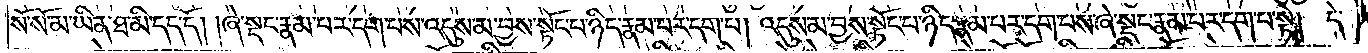སོ་སོ་མ་ཡིན་ཐ་མི་དད་དོ། །ཞེ་སྡང་རྣམ་པར་དག་པས་འདུས་མ་བྱས་སྟོང་པ་ཉིད་རྣམ་པར་དག་པ། འདུས་མ་བྱས་སྟོང་པ་ཉིད་རྣམ་པར་དག་པས་ཞེ་སྡང་རྣམ་པར་དག་པ་སྟེ། དེ་
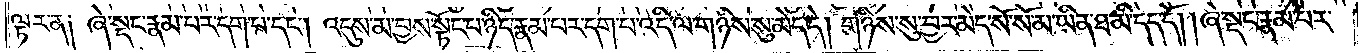ལྟར་ན། ཞེ་སྡང་རྣམ་པར་དག་པ་དང༌། འདུས་མ་བྱས་སྟོང་པ་ཉིད་རྣམ་པར་དག་པ་འདི་ལ་གཉིས་སུ་མེད་དེ། གཉིས་སུ་བྱར་མེད་སོ་སོ་མ་ཡིན་ཐ་མི་དད་དོ། །ཞེ་སྡང་རྣམ་པར་
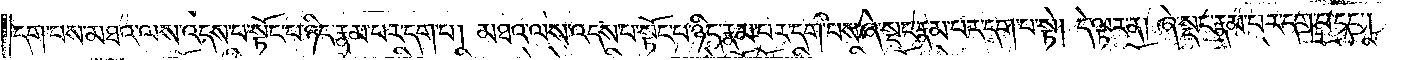དག་པས་མཐའ་ལས་འདས་པ་སྟོང་པ་ཉིད་རྣམ་པར་དག་པ། མཐའ་ལས་འདས་པ་སྟོང་པ་ཉིད་རྣམ་པར་དག་པས་ཞེ་སྡང་རྣམ་པར་དག་པ་སྟེ། དེ་ལྟར་ན། ཞེ་སྡང་རྣམ་པར་དག་པ་དང༌།
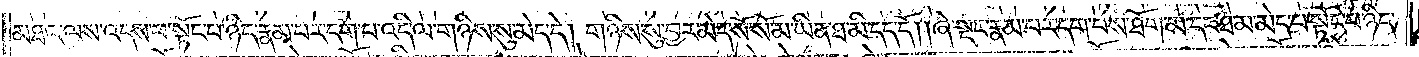མཐའ་ལས་འདས་པ་སྟོང་པ་ཉིད་རྣམ་པར་དག་པ་འདི་ལ་གཉིས་སུ་མེད་དེ། གཉིས་སུ་བྱར་མེད་སོ་སོ་མ་ཡིན་ཐ་མི་དད་དོ། །ཞེ་སྡང་རྣམ་པར་དག་པས་ཐོག་མ་དང་ཐ་མ་མེད་པ་སྟོང་པ་ཉིད་
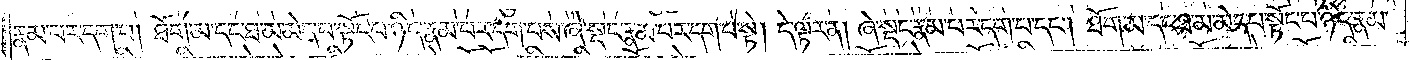རྣམ་པར་དག་པ། ཐོག་མ་དང་ཐ་མ་མེད་པ་སྟོང་པ་ཉིད་རྣམ་པར་དག་པས་ཞེ་སྡང་རྣམ་པར་དག་པ་སྟེ། དེ་ལྟར་ན། ཞེ་སྡང་རྣམ་པར་དག་པ་དང༌། ཐོག་མ་དང་ཐ་མ་མེད་པ་སྟོང་པ་ཉིད་རྣམ་
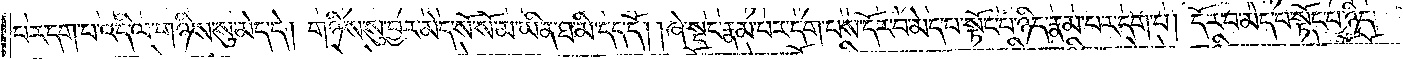པར་དག་པ་འདི་ལ་གཉིས་སུ་མེད་དེ། གཉིས་སུ་བྱར་མེད་སོ་སོ་མ་ཡིན་ཐ་མི་དད་དོ། །ཞེ་སྡང་རྣམ་པར་དག་པས་དོར་བ་མེད་པ་སྟོང་པ་ཉིད་རྣམ་པར་དག་པ། དོར་བ་མེད་པ་སྟོང་པ་ཉིད་
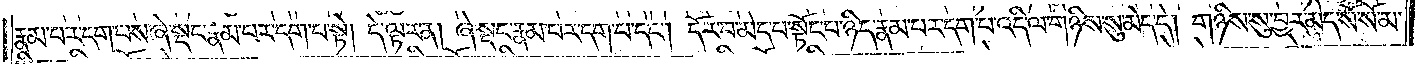རྣམ་པར་དག་པས་ཞེ་སྡང་རྣམ་པར་དག་པ་སྟེ། དེ་ལྟར་ན། ཞེ་སྡང་རྣམ་པར་དག་པ་དང༌། དོར་བ་མེད་པ་སྟོང་པ་ཉིད་རྣམ་པར་དག་པ་འདི་ལ་གཉིས་སུ་མེད་དེ་གཉིས་སུ་མེད་དེ། གཉིས་སུ་བྱར་མེད་སོ་སོ་མ་
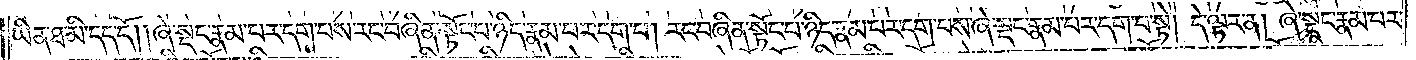ཡིན་ཐ་མི་དད་དོ། །ཞེ་སྡང་རྣམ་པར་དག་པས་རང་བཞིན་སྟོང་པ་ཉིད་རྣམ་པར་དག་པ། རང་བཞིན་སྟོང་པ་ཉིད་རྣམ་པར་དག་པས་ཞེ་སྡང་རྣམ་པར་དག་པ་སྟེ། དེ་ལྟར་ན། ཞེ་སྡང་རྣམ་པར་
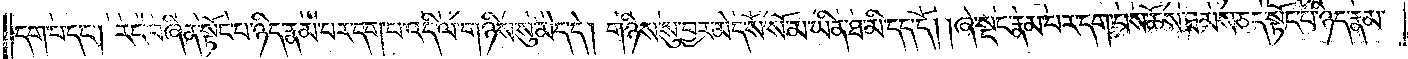དག་པ་དང༌། རང་བཞིན་སྟོང་པ་ཉིད་རྣམ་པར་དག་པ་འདི་ལ་གཉིས་སུ་མེད་དེ། གཉིས་སུ་བྱར་མེད་སོ་སོ་མ་ཡིན་ཐ་མི་དད་དོ། །ཞེ་སྡང་རྣམ་པར་དག་པས་ཆོས་ཐམས་ཅད་སྟོང་པ་ཉིད་རྣམ་
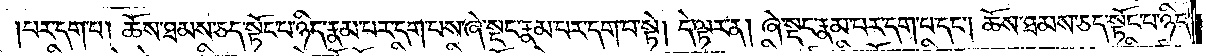པར་དག་པ། ཆོས་ཐམས་ཅད་སྟོང་པ་ཉིད་རྣམ་པར་དག་པས་ཞེ་སྡང་རྣམ་པར་དག་པ་སྟེ། དེ་ལྟར་ན། ཞེ་སྡང་རྣམ་པར་དག་པ་དང༌། ཆོས་ཐམས་ཅད་སྟོང་པ་ཉིད་
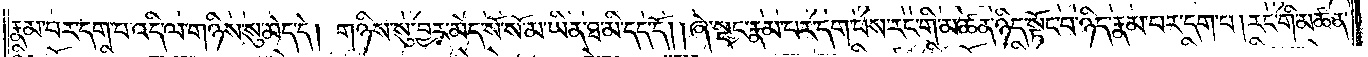རྣམ་པར་དག་པ་འདི་ལ་གཉིས་སུ་མེད་དེ། གཉིས་སུ་བྱར་མེད་སོ་སོ་མ་ཡིན་ཐ་མི་དད་དོ། །ཞེ་སྡང་རྣམ་པར་དག་པས་རང་གི་མཚན་ཉིད་སྟོང་པ་ཉིད་རྣམ་པར་དག་པ། རང་གི་མཚན་
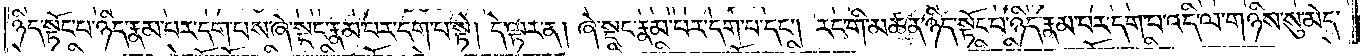ཉིད་སྟོང་པ་ཉིད་རྣམ་པར་དག་པས་ཞེ་སྡང་རྣམ་པར་དག་པ་སྟེ། དེ་ལྟར་ན། ཞེ་སྡང་རྣམ་པར་དག་པ་དང༌། རང་གི་མཚན་ཉིད་སྟོང་པ་ཉིད་རྣམ་པར་དག་པ་འདི་ལ་གཉིས་སུ་མེད་
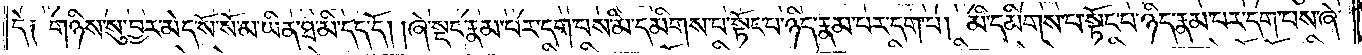དེ༑ གཉིས་སུ་བྱར་མེད་སོ་སོ་མ་ཡིན་ཐ་མི་དད་དོ། །ཞེ་སྡང་རྣམ་པར་དག་པས་མི་དམིགས་པ་སྟོང་པ་ཉིད་རྣམ་པར་དག་པ། མི་དམིགས་པ་སྟོང་པ་ཉིད་རྣམ་པར་དག་པས་ཞེ་
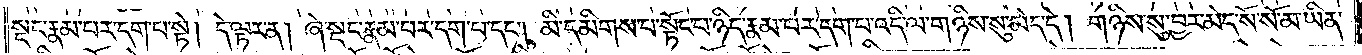སྡང་རྣམ་པར་དག་པ་སྟེ། དེ་ལྟར་ན། ཞེ་སྡང་རྣམ་པར་དག་པ་དང༌། མི་དམིགས་པ་སྟོང་པ་ཉིད་རྣམ་པར་དག་པ་འདི་ལ་གཉིས་སུ་མེད་དེ། གཉིས་སུ་བྱར་མེད་སོ་སོ་མ་ཡིན་
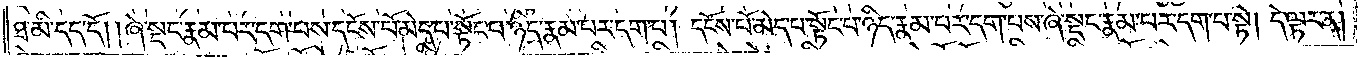ཐ་མི་དད་དོ། །ཞེ་སྡང་རྣམ་པར་དག་པས་དངོས་པོ་མེད་པ་སྟོང་པ་ཉིད་རྣམ་པར་དག་པ། དངོས་པོ་མེད་པ་སྟོང་པ་ཉིད་རྣམ་པར་དག་པས་ཞེ་སྡང་རྣམ་པར་དག་པ་སྟེ། དེ་ལྟར་ན།
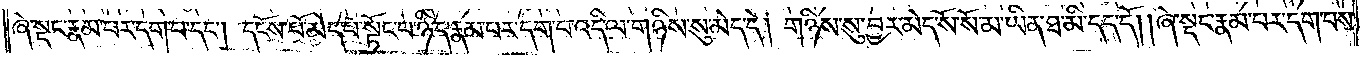ཞེ་སྡང་རྣམ་པར་དག་པ་དང༌། དངོས་པོ་མེད་པ་སྟོང་པ་ཉིད་རྣམ་པར་དག་པ་འདི་ལ་གཉིས་སུ་མེད་དེ། གཉིས་སུ་བྱར་མེད་སོ་སོ་མ་ཡིན་ཐ་མི་དད་དོ། །ཞེ་སྡང་རྣམ་པར་དག་པས་
